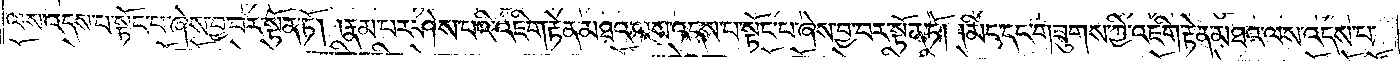ལས་འདས་པ་སྟོང་པ་ཞེས་བྱ་བར་སྟོན་ཏོ། །རྣམ་པར་ཤེས་པའི་འཇིག་རྟེན་མཐའ་ལས་འདས་པ་སྟོང་པ་ཞེས་བྱ་བར་སྟོན་ཏོ། །མིང་དང་གཟུགས་ཀྱི་འཇིག་རྟེན་མཐའ་ལས་འདས་པ་
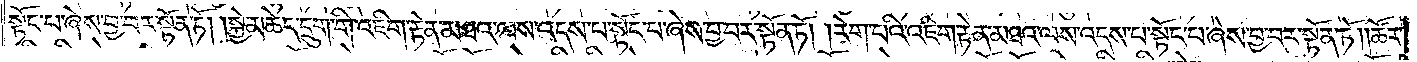སྟོང་པ་ཞེས་བྱ་བར་སྟོན་ཏོ། །སྐྱེ་མཆེད་དྲུག་གི་འཇིག་རྟེན་མཐའ་ལས་འདས་པ་སྟོང་པ་ཞེས་བྱ་བར་སྟོན་ཏོ། །རེག་པའི་འཇིག་རྟེན་མཐའ་ལས་འདས་པ་སྟོང་པ་ཞེས་བྱ་བར་སྟོན་ཏོ། །ཚོར་
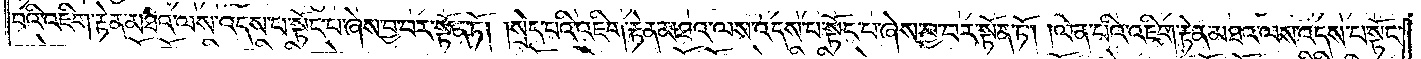བའི་འཇིག་རྟེན་མཐའ་ལས་འདས་པ་སྟོང་པ་ཞེས་བྱ་བར་སྟོན་ཏོ། །སྲེད་པའི་འཇིག་རྟེན་མཐའ་ལས་འདས་པ་སྟོང་པ་ཞེས་བྱ་བར་སྟོན་ཏོ། །ལེན་པའི་འཇིག་རྟེན་མཐའ་ལས་འདས་པ་སྟོང་
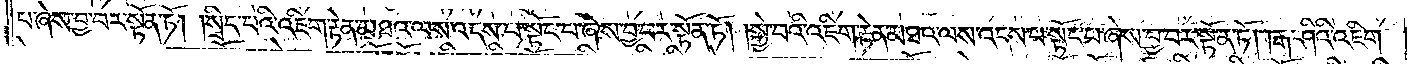པ་ཞེས་བྱ་བར་སྟོན་ཏོ། །སྲིད་པའི་འཇིག་རྟེན་མཐའ་ལས་འདས་པ་སྟོན་པ་ཞེས་བྱ་བར་སྟོན་ཏོ། །སྐྱེ་བའི་འཇིག་རྟེན་མཐའ་ལས་འདས་པ་སྟོང་པ་ཞེས་བྱ་བར་སྟོན་ཏོ། །རྒ་ཤིའི་འཇིག་
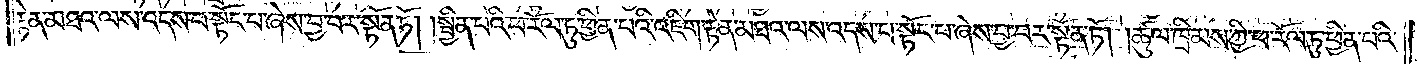རྟེན་མཐའ་ལས་འདས་པ་སྟོང་པ་ཞེས་བྱ་བར་སྟོན་ཏོ། །སྦྱིན་པའི་ཕ་རོལ་ཏུ་ཕྱིན་པའི་འཇིག་རྟེན་མཐའ་ལས་འདས་པ་སྟོང་པ་ཞེས་བྱ་བར་སྟོན་ཏོ། །ཚུལ་ཁྲིམས་ཀྱི་ཕ་རོལ་ཏུ་ཕྱིན་པའི་
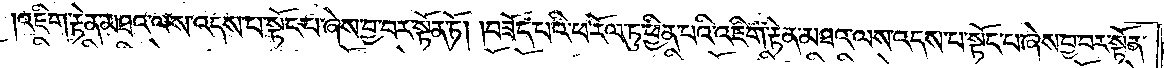འཇིག་རྟེན་མཐའ་ལས་འདས་པ་སྟོང་པ་ཞེས་བྱ་བར་སྟོན་ཏོ། །བཟོད་པའི་ཕ་རོལ་ཏུ་ཕྱིན་པའི་འཇིག་རྟེན་མཐའ་ལས་འདས་པ་སྟོང་པ་ཞེས་བྱ་བར་སྟོན་
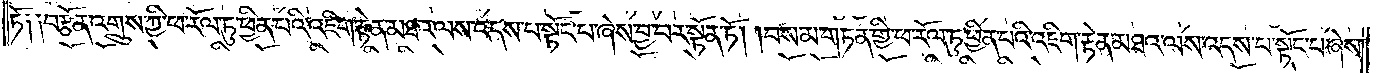ཏོ༑ ༑བརྩོན་འགྲུས་ཀྱི་ཕ་རོལ་ཏུ་ཕྱིན་པའི་འཇིག་རྟེན་མཐའ་ལས་འདས་པ་སྟོང་པ་ཞེས་བྱ་བར་སྟོན་ཏོ། །བསམ་གཏན་གྱི་ཕ་རོལ་ཏུ་ཕྱིན་པའི་འཇིག་རྟེན་མཐའ་ལས་འདས་པ་སྟོང་པ་ཞེས་
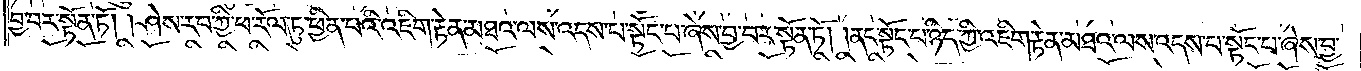བྱ་བར་སྟོན་ཏོ། །ཤེས་རབ་ཀྱི་ཕ་རོལ་ཏུ་ཕྱིན་པའི་འཇིག་རྟེན་མཐའ་ལས་འདས་པ་སྟོང་པ་ཞེས་བྱ་བར་སྟོན་ཏོ། །ནང་སྟོང་པ་ཉིད་ཀྱི་འཇིག་རྟེན་མཐའ་ལས་འདས་པ་སྟོང་པ་ཞེས་བྱ་
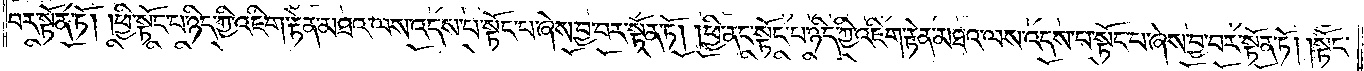བར་སྟོན་ཏོ། །ཕྱི་སྟོང་པ་ཉིད་ཀྱི་འཇིག་རྟེན་མཐའ་ལས་འདས་པ་སྟོང་པ་ཞེས་བྱ་བར་སྟོན་ཏོ། །ཕྱི་ནང་སྟོང་པ་ཉིད་ཀྱི་འཇིག་རྟེན་མཐའ་ལས་འདས་པ་སྟོང་པ་ཞེས་བྱ་བར་སྟོན་ཏོ། །སྟོང་
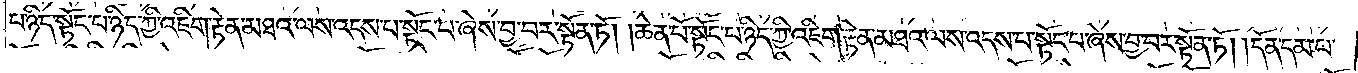པ་ཉིད་སྟོང་པ་ཉིད་ཀྱི་འཇིག་རྟེན་མཐའ་ལས་འདས་པ་སྟོང་པ་ཞེས་བྱ་བར་སྟོན་ཏོ། །ཆེན་པོ་སྟོང་པ་ཉིད་ཀྱི་འཇིག་རྟེན་མཐའ་ལས་འདས་པ་སྟོང་པ་ཞེས་བྱ་བར་སྟོན་ཏོ། །དོན་དམ་པ་
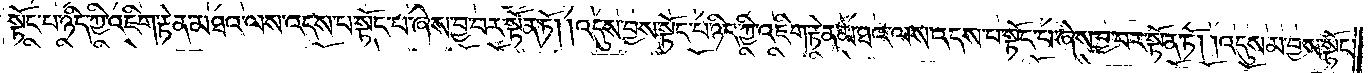སྟོང་པ་ཉིད་ཀྱི་འཇིག་རྟེན་མཐའ་ལས་འདས་པ་སྟོང་པ་ཞེས་བྱ་བར་སྟོན་ཏོ། །འདུས་བྱས་སྟོང་པ་ཉིད་ཀྱི་འཇིག་རྟེན་མཐའ་ལས་འདས་པ་སྟོང་པ་ཞེས་བྱ་བར་སྟོན་ཏོ། །འདུས་མ་བྱས་སྟོང་
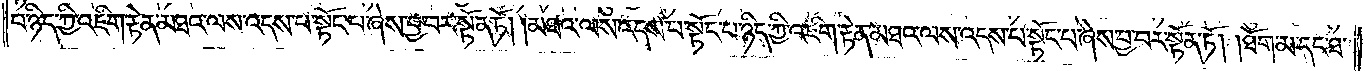པ་ཉིད་ཀྱི་འཇིག་རྟེན་མཐའ་ལས་འདས་པ་སྟོང་པ་ཞེས་བྱ་བར་སྟོན་ཏོ། །མཐའ་ལས་འདས་པ་སྟོང་པ་ཉིད་ཀྱི་འཇིག་རྟེན་མཐའ་ལས་འདས་པ་སྟོང་པ་ཞེས་བྱ་བར་སྟོན་ཏོ། །ཐོག་མ་དང་ཐ་
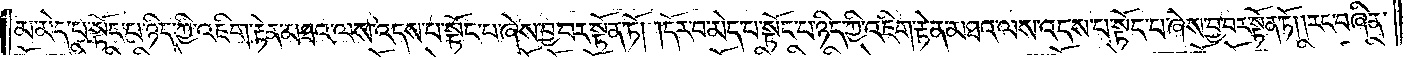མ་མེད་པ་སྟོང་པ་ཉིད་ཀྱི་འཇིག་རྟེན་མཐའ་ལས་འདས་པ་སྟོང་པ་ཞེས་བྱ་བར་སྟོན་ཏོ། །དོར་བ་མེད་པ་སྟོང་པ་ཉིད་ཀྱི་འཇིག་རྟེན་མཐའ་ལས་འདས་པ་སྟོང་པ་ཞེས་བྱ་བར་སྟོན་ཏོ། །རང་བཞིན་
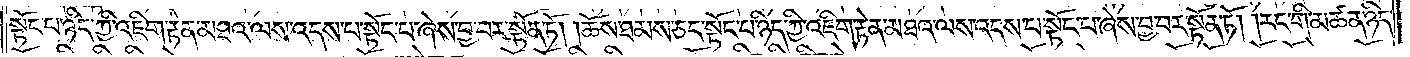སྟོང་པ་ཉིད་ཀྱི་འཇིག་རྟེན་མཐའ་ལས་འདས་པ་སྟོང་པ་ཞེས་བྱ་བར་སྟོན་ཏོ། །ཆོས་ཐམས་ཅད་སྟོང་པ་ཉིད་ཀྱི་འཇིག་རྟེན་མཐའ་ལས་འདས་པ་སྟོང་པ་ཞེས་བྱ་བར་སྟོན་ཏོ། །རང་གི་མཚན་ཉིད་
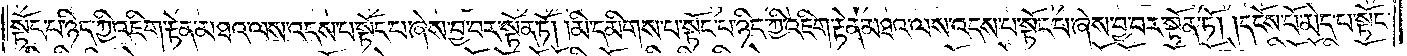སྟོང་པ་ཉིད་ཀྱི་འཇིག་རྟེན་མཐའ་ལས་འདས་པ་སྟོང་པ་ཞེས་བྱ་བར་སྟོན་ཏོ། །མི་དམིགས་པ་སྟོང་པ་ཉིད་ཀྱི་འཇིག་རྟེན་མཐའ་ལས་འདས་པ་སྟོང་པ་ཞེས་བྱ་བར་སྟོན་ཏོ། །དངོས་པོ་མེད་པ་སྟོང་
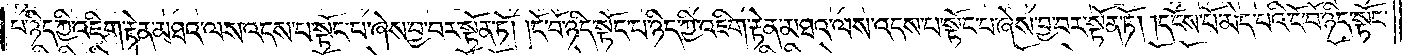པ་ཉིད་ཀྱི་འཇིག་རྟེན་མཐའ་ལས་འདས་པ་སྟོང་པ་ཞེས་བྱ་བར་སྟོན་ཏོ། །ངོ་བོ་ཉིད་སྟོང་པ་ཉིད་ཀྱི་འཇིག་རྟེན་མཐའ་ལས་འདས་པ་སྟོང་པ་ཞེས་བྱ་བར་སྟོན་ཏོ། །དངོས་པོ་མེད་པའི་ངོ་བོ་ཉིད་སྟོང་
